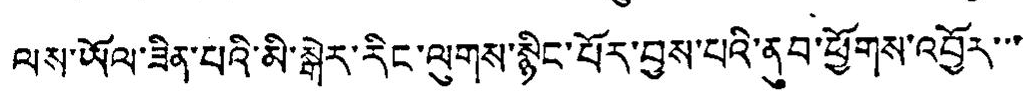ལས་ཡོལ་ཟིན་པའི་མི་སྒེར་རིང་ལུགས་སྙིང་པོར་བྱས་པའི་ནུབ་ཕྱོགས་འབྱོར་་་
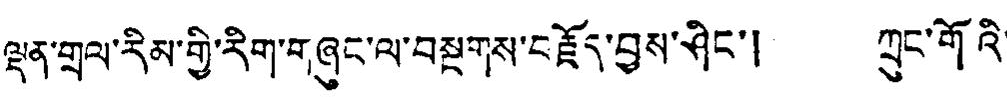ལྡན་གྲལ་རིམ་གྱི་རིག་གཞུང་ལ་བསྔགས་བརྗོད་བྱས་ཤིང་། ཀྲུང་གོའི་
